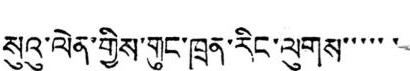སུའུ་ལེན་གྱིས་གུང་ཁྲན་རིང་ལུགས་་་་་་
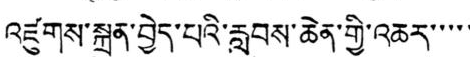འཛུགས་སྐྲུན་བྱེད་པའི་རླབས་ཆེན་གྱི་འཆར་་་་་
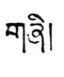གཞི།
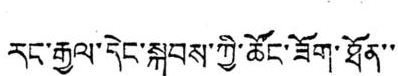རང་རྒྱལ་དེང་སྐབས་ཀྱི་ཚོང་ཟོག་ཐོན་་་
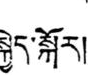སྐྱེད་སྐོར།
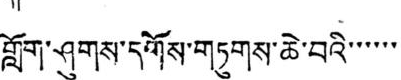གློག་ཤུགས་དགོས་གཏུགས་ཆེ་བའི་་་་་་
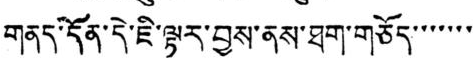གནད་དོན་དེ་ཇི་ལྟར་བྱས་ནས་ཐག་གཅོད་་་་་་་
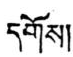དགོས།
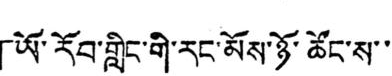「ཡོ་རོབ་གླིང་གི་རང་མོས་ཉོ་ཚོང་ས་་
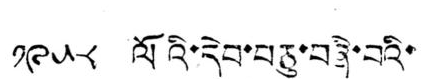༡༩༥༨ ལོའི་དེབ་བཅུ་བཞི་བའི་
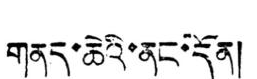གནད་ཆེའི་ནང་དོན།
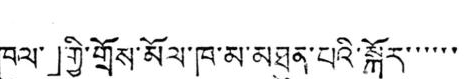ཁུལ་」གྱི་གྲོས་མོལ་ཁ་མ་མཐུན་པའི་སྐོར་་་་་་
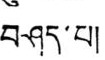བཤད་པ།
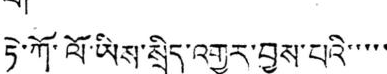ཏེ་ཀོ་ལོ་ཡིས་སྲིད་འགྱུར་བྱས་པའི་་་་་
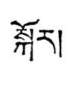སྐོར།
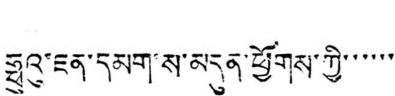ཧྥུའུ་ཇན་དམག་ས་མདུན་ཕྱོགས་ཀྱི་་་་་་
